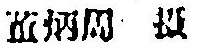董炳周 摄
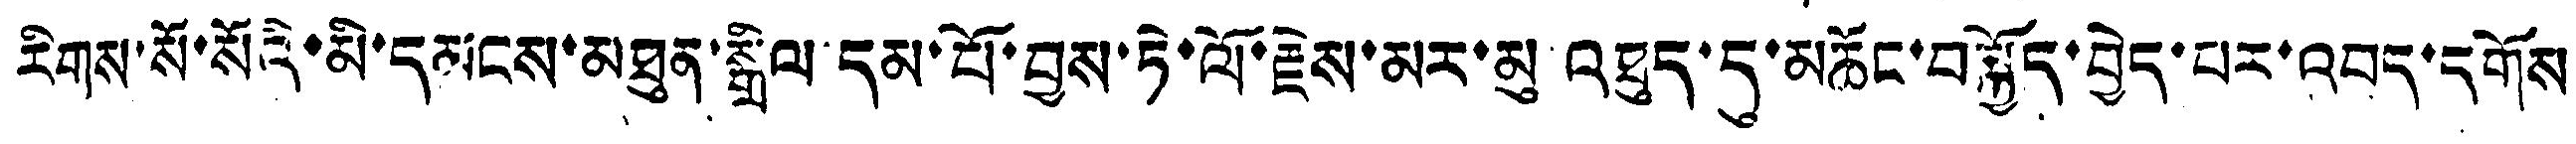རིགས་སོ་སོའི་མི་དམངས་མཐུན་སྒྲིལ་དམ་པོ་བྱས་ཏེ་ལོ་རྗེས་མར་མུ འཐུད་དུ་མཆོང་བསྐྱོད་བྱེད་པར་འབད་དགོས
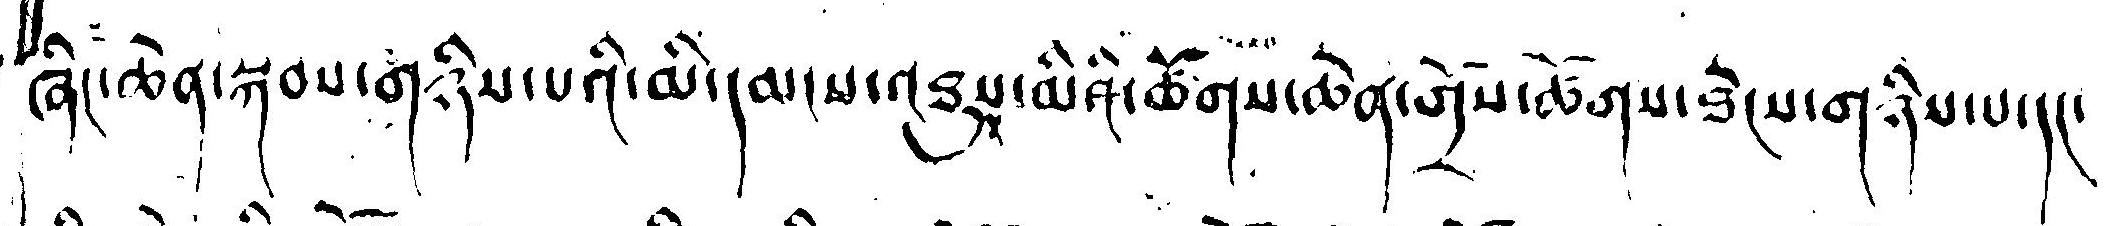ཞིང་ཆེན་སྐབས་གཉིས་པའི་མི་དམངས་འཐུས་མིའི་ཚོགས་ཆེན་གྲོས་ཚོགས་ཐེངས་གཉིས་པ་དང་
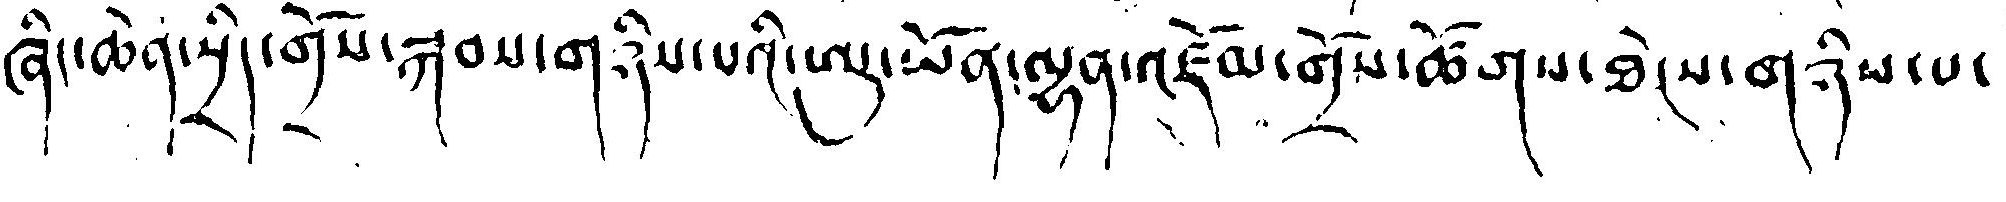ཞིང་ཆེན་སྲིད་གྲོས་སྐབས་གཉིས་པའི་ཨུ་ཡོན་ལྷན་འཛོམ་གྲོས་ཚོགས་ཐེངས་གཉིས་པ་
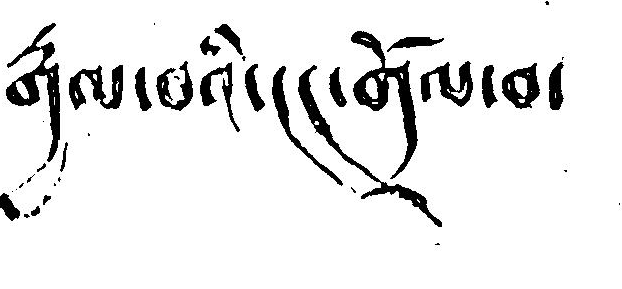རྒྱལ་བའི་ངང་གྲོལ་བ་
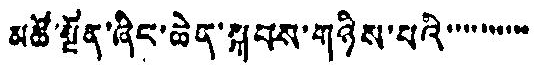མཚོ་སྔོན་ཞིང་ཆེན་སྐབས་གཉིས་པའི་་་་་་་་་་
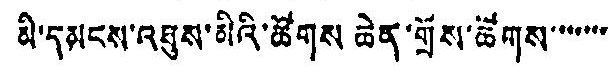མི་དམངས་འཐུས་མིའི་ཚོགས ཆེན་གྲོས་ཚོགས་་་་་་་
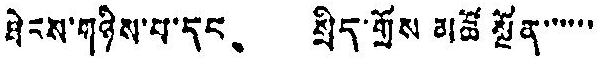ཐེངས་གཉིས་པ་དང、 སྲིད་གྲོས མཚོ སྔོན་་་་་་
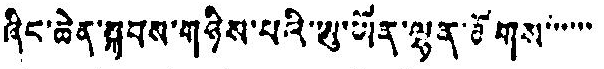ཞིང་ཆེན་སྐབས་གཉིས་པའི་ཨུ་ཡོན་ལྷན་ཚོགས་་་་་་
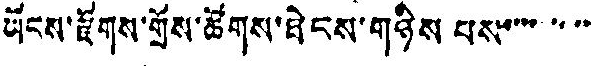ཡོངས་རྫོགས་གྲོས་ཚོགས་ཐེངས་གཉིས པས་་་་་་་་
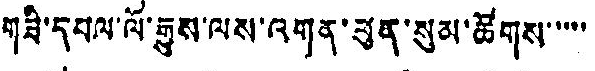གཟི་དཔལ་ལོ་རྒྱུས་ལས་འགན་ཕུན་སུམ་ཚོགས་་་་་
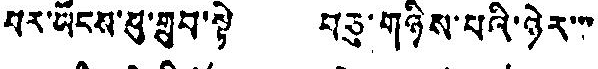པར་ཡོངས་ཕུ་གྲུབ་སྟེ བཅུ་གཉིས་པའི་ཉེར་་་
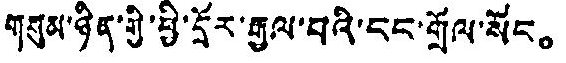གསུམ་ཉིན་གྱི་ཕྱི་དྲོར་རྒྱལ་བའི་ངང་གྲོལ་སོང。
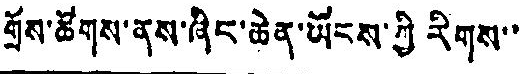གྲོས་ཚོགས་ནས་ཞིང་ཆེན་ཡོངས་ཀྱི རིགས་་
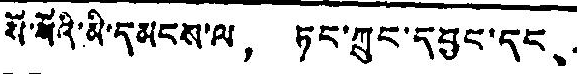སོ་སོའི་མི་དམངས་ལ， ཏང་ཀྲུང་དབྱང་དང、
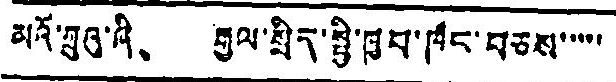མའོ་ཀྲུའུ་ཞི、 རྒྱལ་སྲིད་སྤྱི་ཁྱབ་ཁང་བཅས་་་་་
